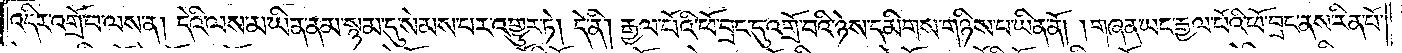འདིར་འགྲོ་བ་ལས་ན། དེའི་ལས་མ་ཡིན་ནམ་སྙམ་དུ་སེམས་པར་འགྱུར་ཏེ། དེ་ནི། རྒྱལ་པོའི་ཕོ་བྲང་དུ་འགྲོ་བའི་ཉེས་དམིགས་གཉིས་པ་ཡིན་ནོ། །གཞན་ཡང་རྒྱལ་པོའི་ཕོ་བྲང་ནས་རིན་པོ་
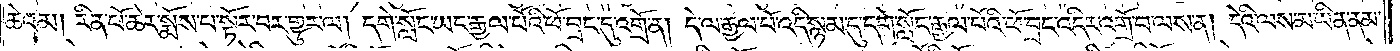ཆེའམ། རིན་པོ་ཆེར་སྨོས་པ་སྟོར་བར་གྱུར་ལ། དགེ་སློང་ཡང་རྒྱལ་པོའི་ཕོ་བྲང་དུ་འགྲོ་ན། དེ་ལ་རྒྱལ་པོ་འདི་སྙམ་དུ་དགེ་སློང་རྒྱལ་པོའི་ཕོ་བྲང་འདིར་འགྲོ་བ་ལས་ན། དེའི་ལས་མ་ཡིན་ནམ་
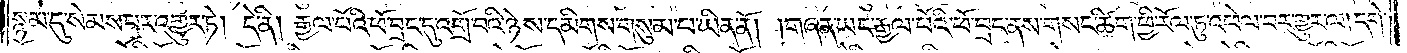སྙམ་དུ་སེམས་པར་འགྱུར་ཏེ། དེ་ནི། རྒྱལ་པོའི་ཕོ་བྲང་དུ་འགྲོ་བའི་ཉེས་དམིགས་གསུམ་པ་ཡིན་ནོ། །གཞན་ཡང་རྒྱལ་པོའི་ཕོ་བྲང་ནས་གསང་ཚིག་ཕྱི་རོལ་ཏུ་འཕེལ་བར་གྱུར་ལ། དགེ་
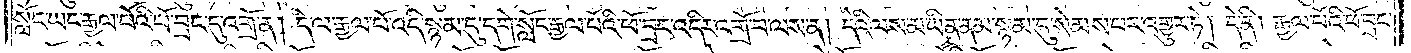སློང་ཡང་རྒྱལ་པོའི་ཕོ་བྲང་དུ་འགྲོ་ན། དེ་ལ་རྒྱལ་པོ་འདི་སྙམ་དུ་དགེ་སློང་རྒྱལ་པོའི་ཕོ་བྲང་འདིར་འགྲོ་བ་ལས་ན། དེའི་ལས་མ་ཡིན་ནམ་སྙམ་དུ་སེམས་པར་འགྱུར་ཏེ། དེ་ནི། རྒྱལ་པོའི་ཕོ་བྲང་
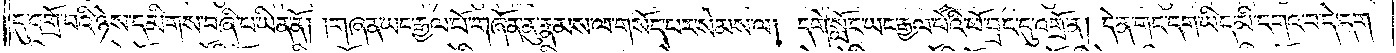དུ་འགྲོ་བའི་ཉེས་དམིགས་བཞི་པ་ཡིན་ནོ། །གཞན་ཡང་རྒྱལ་པོ་གཞོན་ནུ་རྣམས་ལ་གསོད་པར་སེམས་ལ། དགེ་སློང་ཡང་རྒྱལ་པོའི་ཕོ་བྲང་དུ་འགྲོ་ན། དེ་ན་གང་དག་ཡིད་མི་དགའ་བ་དེ་དག
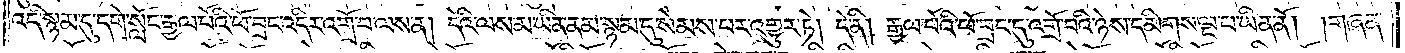འདི་སྙམ་དུ་དགེ་སློང་རྒྱལ་པོའི་ཕོ་བྲང་འདིར་འགྲོ་བ་ལས་ན། དེའི་ལས་མ་ཡིན་ནམ་སྙམ་དུ་སེམས་པར་འགྱུར་ཏེ། དེ་ནི། རྒྱལ་པོའི་ཕོ་བྲང་དུ་འགྲོ་བའི་ཉེས་དམིགས་ལྔ་པ་ཡིན་ནོ། །གཞན་
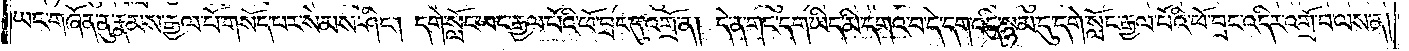ཡང་གཞོན་ནུ་རྣམས་རྒྱལ་པོ་གསོད་པར་སེམས་ཤིང༌། དགེ་སློང་ཡང་རྒྱལ་པོའི་ཕོ་བྲང་དུ་འགྲོ་ན། དེ་ན་གང་དག་ཡིད་མི་དགའ་བ་དེ་དག་འདི་སྙམ་དུ་དགེ་སློང་རྒྱལ་པོའི་ཕོ་བྲང་འདིར་འགྲོ་བ་ལས་ན།
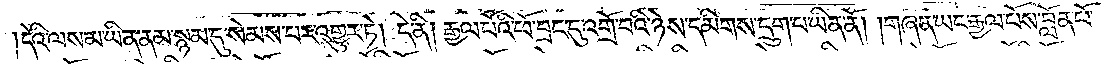དེའི་ལས་མ་ཡིན་ནམ་སྙམ་དུ་སེམས་པར་འགྱུར་ཏེ། དེ་ནི། རྒྱལ་པོའི་ཕོ་བྲང་དུ་འགྲོ་བའི་ཉེས་དམིགས་དྲུག་པ་ཡིན་ནོ། །གཞན་ཡང་རྒྱལ་པོས་བློན་པོ་
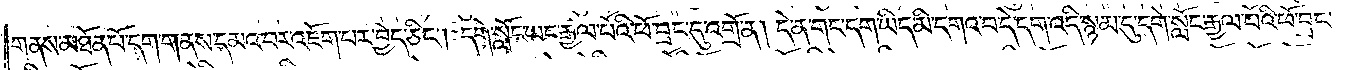གནས་མཐོན་པོ་དག་གནས་དམའ་བར་འཇོག་པར་བྱེད་ཅིང༌། དགེ་སློང་ཡང་རྒྱལ་པོའི་ཕོ་བྲང་དུ་འགྲོ་ན། དེ་ན་གང་དག་ཡིད་མི་དགའ་བ་དེ་དག་འདི་སྙམ་དུ་དགེ་སློང་རྒྱལ་པོའི་ཕོ་བྲང་
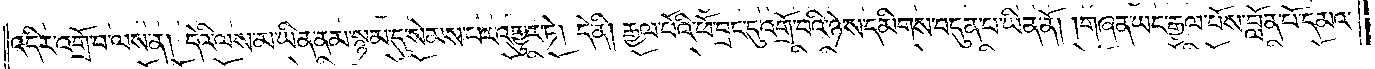འདིར་འགྲོ་བ་ལས་ན། དེའི་ལས་མ་ཡིན་ནམ་སྙམ་དུ་སེམས་པར་འགྱུར་ཏེ། དེ་ནི། རྒྱལ་པོའི་ཕོ་བྲང་དུ་འགྲོ་བའི་ཉེས་དམིགས་བདུན་པ་ཡིན་ནོ། །གཞན་ཡང་རྒྱལ་པོས་བློན་པོ་དམའ་
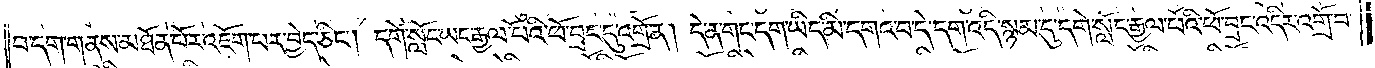བ་དག་གནས་མཐོན་པོར་འཇོག་པར་བྱེད་ཅིང༌། དགེ་སློང་ཡང་རྒྱལ་པོའི་ཕོ་བྲང་དུ་འགྲོ་ན། དེ་ན་གང་དག་ཡིད་མི་དགའ་བ་དེ་དག་འདི་སྙམ་དུ་དགེ་སློང་རྒྱལ་པོའི་ཕོ་བྲང་འདིར་འགྲོ་བ་
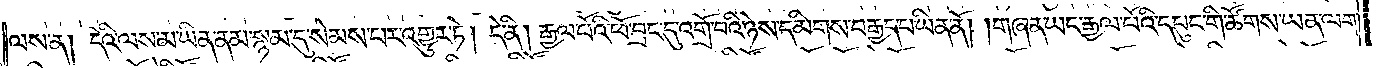ལས་ན། དེའི་ལས་མ་ཡིན་ནམ་སྙམ་དུ་སེམས་པར་འགྱུར་ཏེ། དེ་ནི། རྒྱལ་པོའི་ཕོ་བྲང་དུ་འགྲོ་བའི་ཉེས་དམིགས་བརྒྱད་པ་ཡིན་ནོ། །གཞན་ཡང་རྒྱལ་པོའི་དཔུང་གི་ཚོགས་ཡན་ལག་
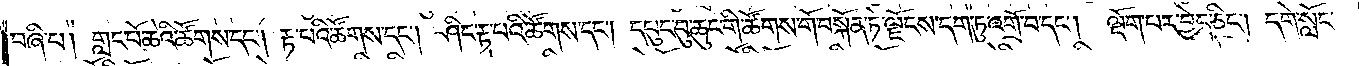བཞི་པ། གང་པོ་ཆེའི་ཚོགས་དང༌། རྟ་པའི་ཚོགས་དང༌། ཤིང་རྟ་པའི་ཚོགས་དང༌། དཔུང་བུ་ཆུང་གི་ཚོགས་གོ་བསྐོན་ཏེ་ལྗོངས་དག་ཏུ་འགྲོ་བ་དང༌། ལྡོག་པར་བྱེད་ཅིང༌། དགེ་སློང་
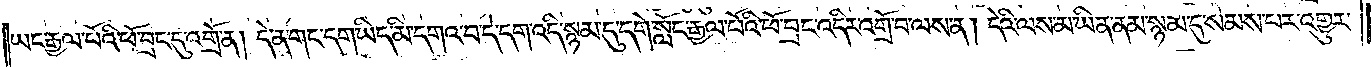ཡང་རྒྱལ་པོའི་ཕོ་བྲང་དུ་འགྲོ་ན། དེ་ན་གང་དག་ཡིད་མི་དགའ་བ་དེ་དག་འདི་སྙམ་དུ་དགེ་སློང་རྒྱལ་པོའི་ཕོ་བྲང་འདིར་འགྲོ་བ་ལས་ནི། དེའི་ལས་མ་ཡིན་ནམ་སྙམ་དུ་སེམས་པར་འགྱུར་
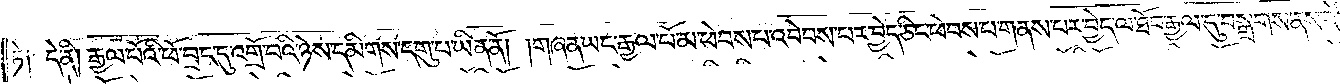ཏེ༑ དེ་ནི། རྒྱལ་པོའི་ཕོ་བྲང་དུ་འགྲོ་བའི་ཉེས་དམིགས་དགུ་པ་ཡིན་ནོ། །གཞན་ཡང་རྒྱལ་པོ་མ་ཕེབས་པ་འབེབས་པར་བྱེད་ཅིང་ཕེབས་པ་གནས་པར་བྱེད་ལ་ཐོབ་རྒྱལ་དུ་བསྒྲགས་ནས་དེ
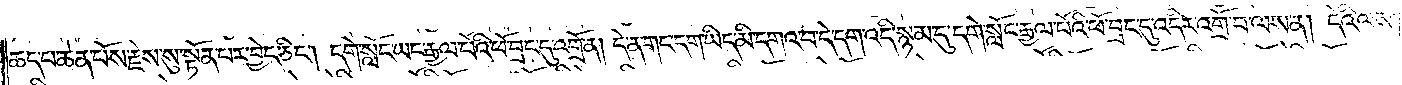ཆད་པ་ཆེན་པོས་རྗེས་སུ་སྟོན་པར་བྱེད་ཅིང༌། དགེ་སློང་ཡང་རྒྱལ་པོའི་ཕོ་བྲང་དུ་འགྲོ་ན། དེ་ན་གང་དག་ཡིད་མི་དགའ་བ་དེ་དག་འདི་སྙམ་དུ་དགེ་སློང་རྒྱལ་པོའི་ཕོ་བྲང་དུ་འདིར་འགྲོ་བ་ལས་ན། དེའི་ལས་
